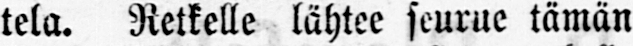tela. Retkelle lähtee seurue tämän
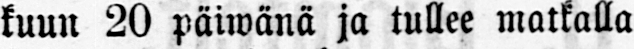kuun 20 päiwänä ja tullee matkalla
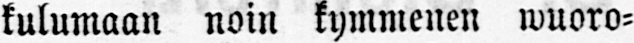kulumaan noin kymmenen wuoro-
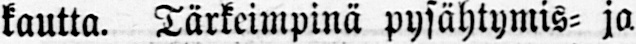kautta. Tärkeimpinä pysähtymis- ja
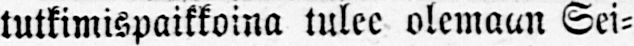tutkimispaikkoina tulee olemaan Sei-
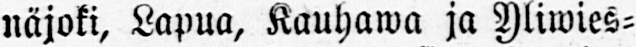näjoki, Lapua, Kauhawa ja Yliwies-
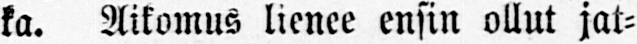ka. Aikomus lienee ensin ollut jat-
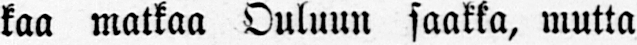kaa matkaa Ouluun saakka, mutta
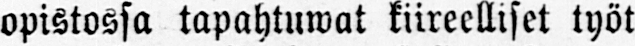opistossa tapahtuwat kiireelliset työt
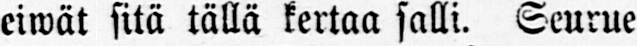eiwät sitä tällä kertaa salli. Seurue
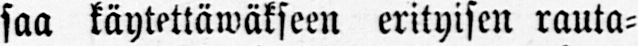saa käytettäwäkseen erityisen rauta-
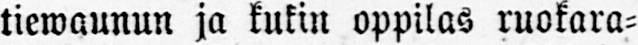tiewaunun ja kukin oppilas ruokara-
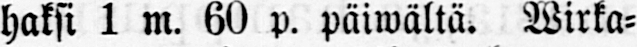haksi 1 m. 60 p. päiwältä. Wirka-
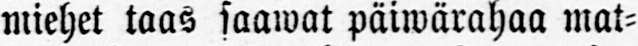miehet taas saawat päiwärahaa mat-
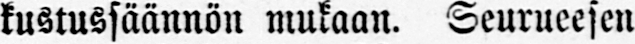kustussäännön mukaan. Seurueesen
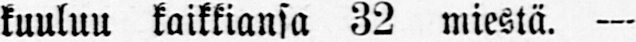kuuluu kaikkiansa 32 miestä. —
